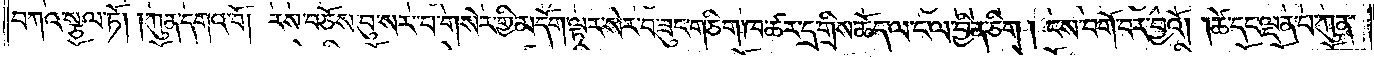བཀའ་སྩལ་ཏོ། །ཀུན་དགའ་བོ། རས་བཅོས་བུ་སར་པ་གསེར་གྱི་མདོག་ལྟར་སེར་བཟུང་གཅིག་ཁ་ཚར་དྲ་གྲིས་ཆོད་ལ་ང་ལ་བྱིན་ཅིག །ངས་བགོ་བར་བྱའོ། །ཚེ་དང་ལྡན་པ་ཀུན་
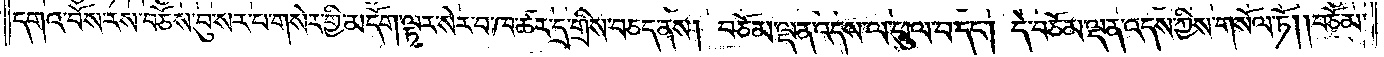དགའ་བོས་རས་བཅོས་བུ་སར་པ་གསེར་གྱི་མདོག་ལྟར་སེར་པ་ཁ་ཚར་དྲ་གྲིས་བཅད་ནས། བཅོམ་ལྡན་འདས་ལ་ཕུལ་བ་དང༌། དེ་བཅོམ་ལྡན་འདས་ཀྱིས་གསོལ་ཏོ། །བཅོམ་
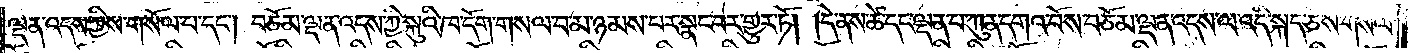ལྡན་འདས་ཀྱིས་གསོལ་པ་དང༌། བཅོམ་ལྡན་འདས་ཀྱི་སྐུའི་ཁ་དོག་གསལ་བ་མ་ཉམས་པར་སྣང་བར་གྱུར་ཏོ། །དེ་ནས་ཚེ་དང་ལྡན་པ་ཀུན་དགའ་བོས་བཅོམ་ལྡན་འདས་ལ་འདི་སྐད་ཅེས་གསོལ་
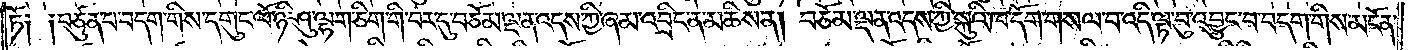ཏོ༑ ༑བཙུན་པ་བདག་གིས་དགུང་ལོ་ཉི་ཤུ་ལྷག་ཅིག་གི་བར་དུ་བཅོམ་ལྡན་འདས་ཀྱི་ཞམ་འབྲིང་ན་མཆིས་ན། བཅོམ་ལྡན་འདས་ཀྱི་སྐུའི་ཁ་དོག་གསལ་བ་འདི་ལྟ་བུ་འབྱུང་བ་བདག་གིས་མངོན་
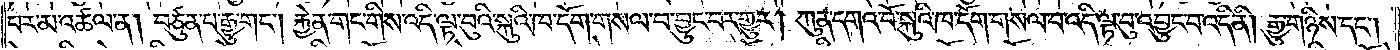པར་མ་འཚལ་ན། བཙུན་པ་རྒྱུ་གང༌། རྐྱེན་གང་གིས་འདི་ལྟ་བུའི་སྐུའི་ཁ་དོག་གསལ་བ་བྱུང་བར་གྱུར། ཀུན་དགའ་བོ་སྐུའི་ཁ་དོག་གསལ་བ་འདི་ལྟ་བུ་འབྱུང་བ་འདི་ནི། རྒྱུ་གཉིས་དང༌།
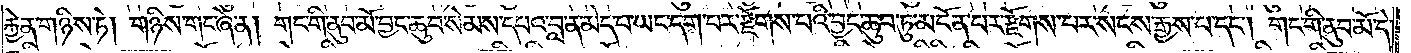རྐྱེན་གཉིས་ཏེ། གཉིས་གང་ཞེ་ན། གང་གི་ནུབ་མོ་བྱང་ཆུབ་སེམས་དཔའ་བླ་ན་མེད་པ་ཡང་དག་པར་རྫོགས་པའི་བྱང་ཆུབ་ཏུ་མངོན་པར་རྫོགས་པར་སངས་རྒྱས་པ་དང༌། གང་གི་ནུབ་མོ་དེ་
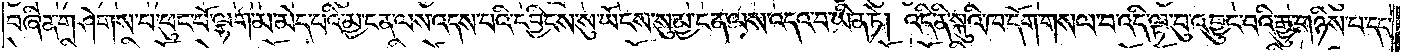བཞིན་གཤེགས་པ་ཕུང་པོ་ལྷག་མ་མེད་པའི་མྱ་ངན་ལས་འདས་པའི་དབྱིངས་སུ་ཡོངས་སུ་མྱ་ངན་ལས་འདའ་བ་ཡིན་ཏེ། འདི་ནི་སྐུའི་ཁ་དོག་གསལ་བ་འདི་ལྟ་བུ་འབྱུང་བའི་རྒྱུ་གཉིས་པ་དང་
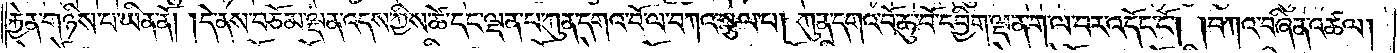རྐྱེན་གཉིས་པ་ཡིན་ནོ། །དེ་ནས་བཅོམ་ལྡན་འདས་ཀྱིས་ཚེ་དང་ལྡན་པ་ཀུན་དགའ་བོ་ལ་བཀའ་སྩལ་པ། ཀུན་དགའ་བོ་ཆུ་བོ་དབྱིག་ལྡན་ག་ལ་བར་འདོང་ངོ༌། །བཀའ་བཞིན་འཚལ།
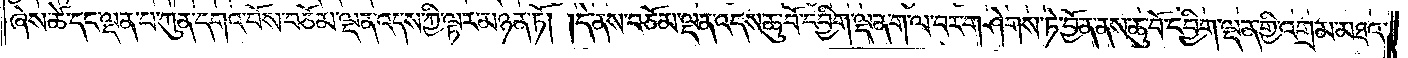ཞེས་ཚེ་དང་ལྡན་པ་ཀུན་དགའ་བོས་བཅོམ་ལྡན་འདས་ཀྱི་ལྟར་མཉན་ཏོ། །དེ་ནས་བཅོམ་ལྡན་འདས་ཆུ་བོ་དབྱིག་ལྡན་ག་ལ་བར་གཤེགས་ཏེ་བྱོན་ནས་ཆུ་བོ་དབྱིག་ལྡན་གྱི་འགྲམ་མཐའ་
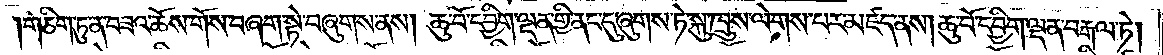གཅིག་ཏུ་ན་བཟའ་ཆོས་གོས་བཞག་སྟེ་བཞུགས་ནས། ཆུ་བོ་དབྱིག་ལྡན་གྱི་ནང་དུ་ཞུགས་ཏེ་སྐུ་ཁྲུས་ལེགས་པར་མཛད་ནས། ཆུ་བོ་དབྱིག་ལྡན་བརྒལ་ཏེ།
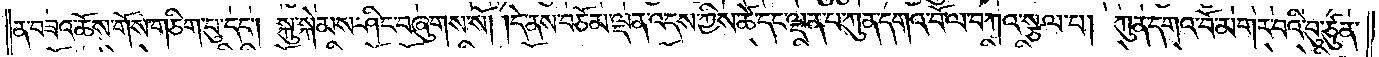ན་བཟའ་ཆོས་གོས་གཅིག་པུ་དང༌། སྐུ་སྐེམས་ཤིང་བཞུགས་སོ། །དེ་ནས་བཅོམ་ལྡན་འདས་ཀྱིས་ཚེ་དང་ལྡན་པ་ཀུན་དགའ་བོ་ལ་བཀའ་སྩལ་པ། ཀུན་དགའ་བོ་མགར་བའི་བུ་ཙུན་
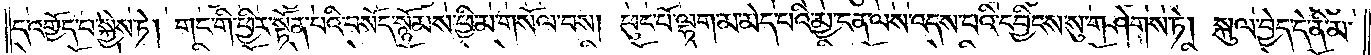ད་འགྱོད་པ་སྐྱེས་ཏེ། གང་གི་ཕྱིར་སྟོན་པའི་བསོད་སྙོམས་ཕྱི་མ་གསོལ་བས། ཕུང་པོ་ལྷག་མ་མེད་པའི་མྱ་ངན་ལས་འདས་པའི་དབྱིངས་སུ་གཤེགས་ཏེ། སྐུལ་བྱེད་དེ་ནི་མ་
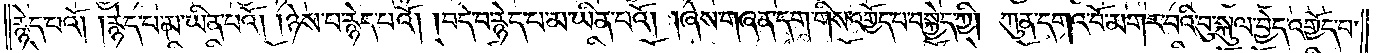རྙེད་པའོ། །རྙེད་པ་མ་ཡིན་པའོ། །ཉེས་པ་རྙེད་པའོ། །བདེ་བ་རྙེད་པ་མ་ཡིན་པའོ། །ཞེས་གཞན་དག་གིས་འགྱོད་པ་བསྐྱེད་ཀྱི། ཀུན་དགའ་བོ་མགར་བའི་བུ་སྐུལ་བྱེད་འགྱོད་པ་
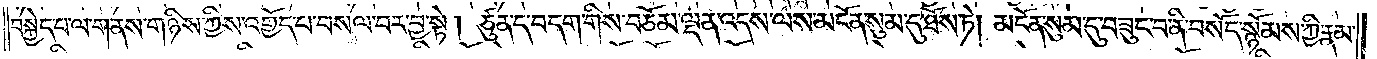བསྐྱེད་པ་ལ་གནས་གཉིས་ཀྱིས་འགྱོད་པ་བསལ་བར་བྱ་སྟེ། ཙུན་ད་བདག་གིས་བཅོམ་ལྡན་འདས་ལས་མངོན་སུམ་དུ་ཐོས་ཏེ། མངོན་སུམ་དུ་བཟུང་བ་ནི་བསོད་སྙོམས་ཀྱི་རྣམ་
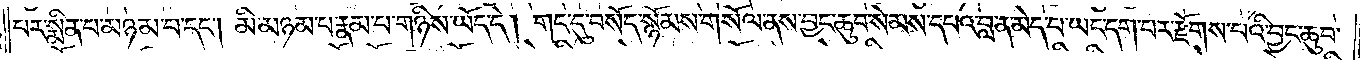པར་སྨིན་པ་མཉམ་པ་དང༌། མི་མཉམ་པ་རྣམ་པ་གཉིས་ཡོད་དེ། གང་དུ་བསོད་སྙོམས་གསོལ་ནས་བྱང་ཆུབ་སེམས་དཔའ་བླ་ན་མེད་པ་ཡང་དག་པར་རྫོགས་པའི་བྱང་ཆུབ་
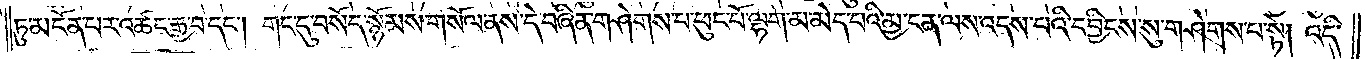ཏུ་མངོན་པར་འཚང་རྒྱ་བ་དང༌། གང་དུ་བསོད་སྙོམས་གསོལ་ནས་དེ་བཞིན་གཤེགས་པ་ཕུང་པོ་ལྷག་མ་མེད་པའི་མྱ་ངན་ལས་འདས་པའི་དབྱིངས་སུ་གཤེགས་པ་སྟེ། འདི་
